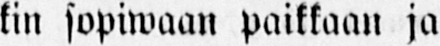kin sopiwaan paikkaan ja
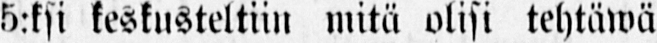5:ksi keskusteltiin mitä olisi tehtäwä
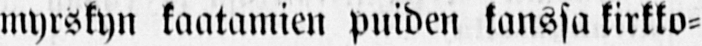myrskyn kaatamien puiden kanssa kirkko-
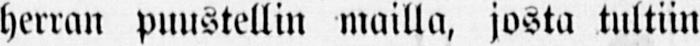herran puustellin mailla, josta tultiin
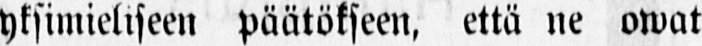yksimieliseen päätökseen, että ne owat
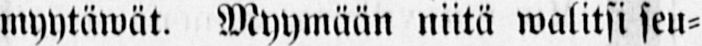myytäwät. Myymään niitä walitsi seu-
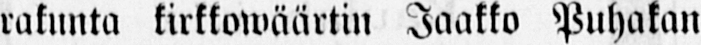rakunta kirkkowäärtin Jaakko Puhakan
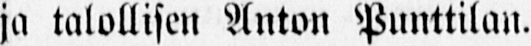ja talollisen Anton Punttilan.
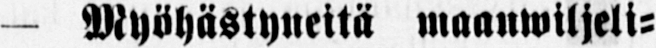— Myöhästyneitä maanwiljeli-
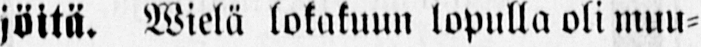jöitä. Wielä lokakuun lopulla oli muu-
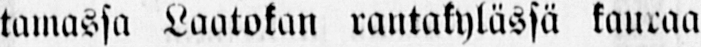tamassa Laatokan rantakylässä kauraa
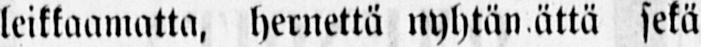leikkaamatta, hernettä nyhtämättä sekä
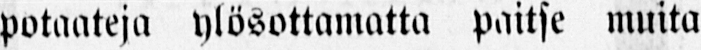potaateja ylösottamatta paitse muita
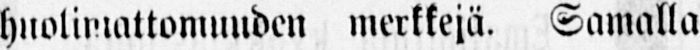huolimattomuuden merkkejä. Samalla
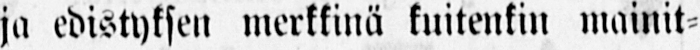ja edistyksen merkkinä kuitenkin mainit-
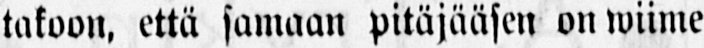takoon, että samaan pitäjääsen on wiime
